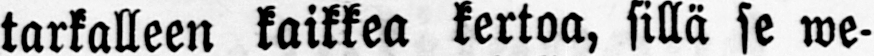tarkalleen kaikkea kertoa, sillä se we-
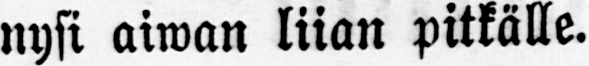nysi aiwan liian pitkälle.
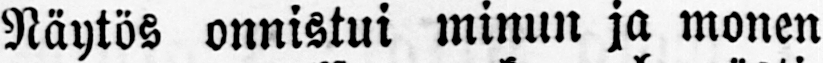Näytös onnistui minun ja monen
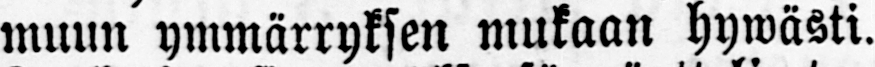muun ymmärryksen mukaan hywästi.
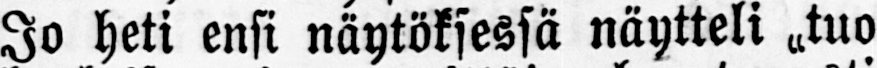Jo heti ensi näytöksessä näytteli „tuo
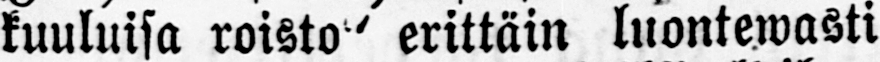kuuluisa roisto erittäin luontewasti
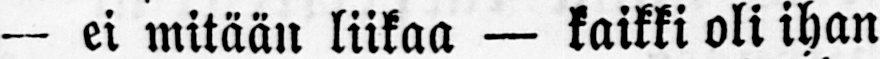— ei mitään liikaa — kaikki oli ihan
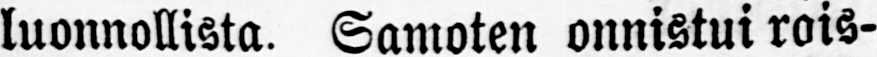luonnollista. Samoten onnistui rois-
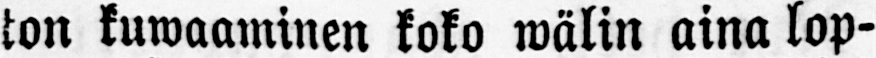ton kuwaaminen koko wälin aina lop-
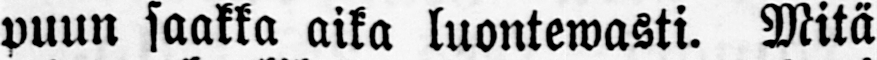puun saakka aika luontewasti. Mitä
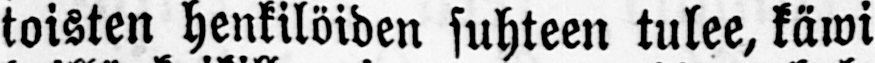toisten henkilöiden suhteen tulee, käwi
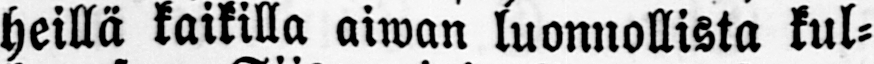heillä kaikilla aiwan luonnollista kul-
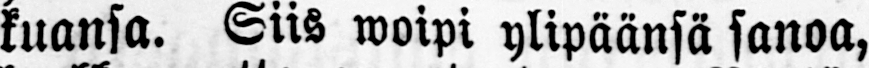kuansa. Siis woipi ylipäänsä sanoa,
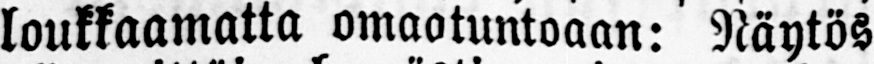loukkaamatta omaatuntoaan: Näytös
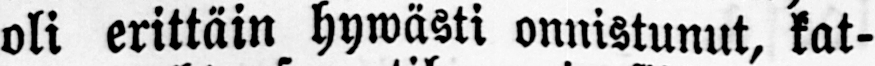oli erittäin hywästi onnistunut, kat-
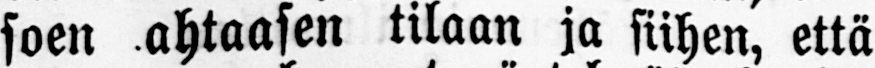soen ahtaasen tilaan ja siihen, että
